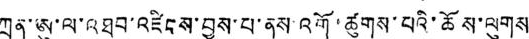ཀྲན་ཨུ་ལ་འཐབ་འཛིངས་བྱས་པ་ནས་འགོ་ཚུགས་པའི་ཆོས་ལུགས་
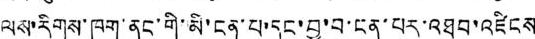ལས་རིགས་ཁག་ནང་གི་མི་ངན་པ་དང་བྱ་བ་ངན་པར་འཐབ་འཛིངས
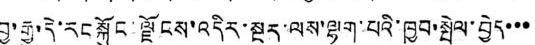བྱ་རྒྱུ་དེ་རང་སྐྱོང་ལྗོངས་འདིར་སྔར་ལས་ལྷག་པའི་ཁྱབ་སྤེལ་བྱེད་་་
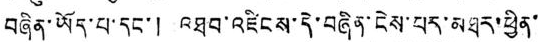བཞིན་ཡོད་པ་དང་། འཐབ་འཛིངས་དེ་བཞིན་ངེས་པར་མཐར་ཕྱིན་
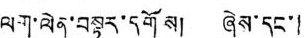ལག་ལེན་བསྟར་དགོས། ཞེས་དང་།
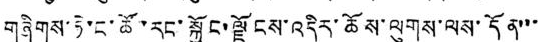གཞིགས་ཏེ་ང་ཚོ་རང་སྐྱོང་ལྗོངས་འདིར་ཆོས་ལུགས་ལས་དོན་་་
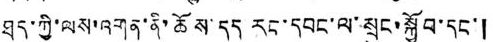ཐད་ཀྱི་ལས་འགན་ནི་ཆོས་དད རང་དབང་ལ་སྲུང་སྐྱོབ་དང་།
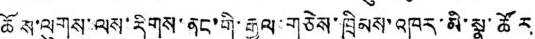ཆོས་ལུགས་ལས་རིགས་ནང་གི་རྒྱལ་གཅེས་ཁྲིམས་འཁུར་མི་སྣ་ཚོར
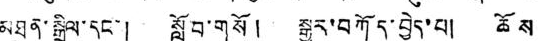མཐུན་སྒྲིལ་དང་། སློབ་གསོ། སྒྱུར་བཀོད་བྱེད་པ། ཆོས
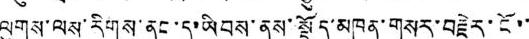ལུགས་ལས་རིགས་ནང་དུ་ཡིབས་ནས་སྡོད་མཁན་གསར་བརྗེར་ངོ་་
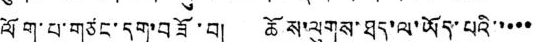ལོག་པ་གཙང་དག་བཟོ་བ། ཆོས་ལུགས་ཐད་ལ་ཡོད་པའི་་་་་
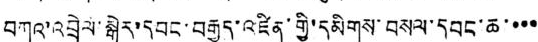བཀའ་འབྲེལ་སྒེར་དབང་བརྒྱུད་འཛིན་གྱི་དམིགས་བསལ་དབང་ཆ་་་་
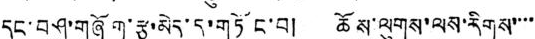དང་བཤུ་གཞོག་རྩ་མེད་དུ་གཏོང་བ། ཆོས་ལུགས་ལས་རིགས་་་་
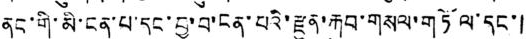ནང་གི་མི་ངན་པ་དང་བྱ་བ་ངན་པའི་རྫུན་རྐུབ་གསལ་གཏོལ་དང་།
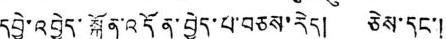དབྱེ་འབྱེད་སྐྱོན་འདོན་བྱེད་པ་བཅས་རེད། ཅེས་དང་།
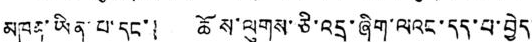མཁན་ཡིན་པ་དང་། ཆོས་ལུགས་ཅི་འདྲ་ཞིག་ལའང་དད་པ་བྱེད་
